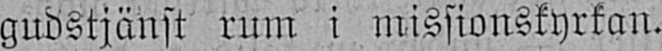gudstjänst rum i missionskyrkan.
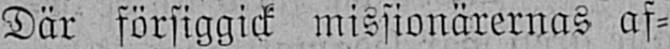Där försiggick missionärernas af-
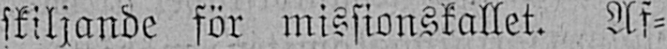skiljande för missionskallet. Af-
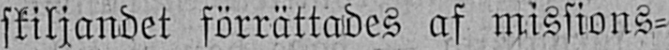skiljandet förrättades af missions-
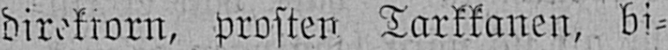direktorn, prosten Tarkkanen, bi-
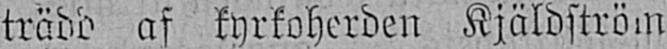trädd af kyrkoherden Kjäldström
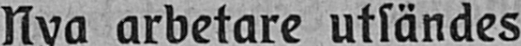Nya arbetare utsändes
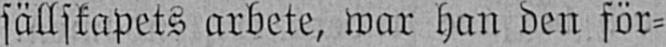sällskapets arbete, war han den för-
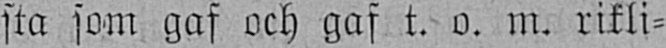sta som gaf och gaf t. o. m. rikli-
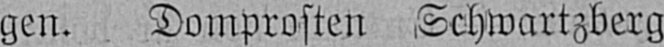gen. Domprosten Schwartzberg
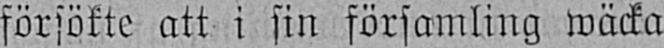försökte att i sin församling wäcka
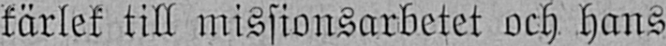kärlek till missionsarbetet och hans
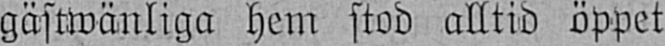gästwänliga hem stod alltid öppet
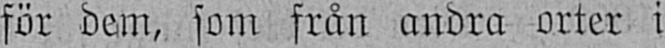för dem, som från andra orter i
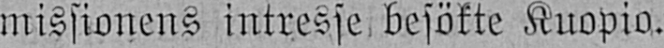missionens intresse besökte Kuopio.
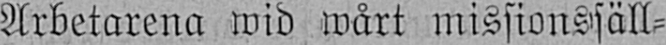Arbetarena wid wårt missionssäll-
